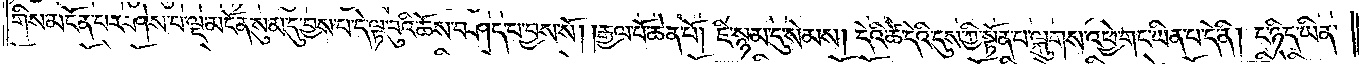གིས་མངོན་པར་ཤེས་པ་ལྔ་མངོན་སུམ་དུ་བྱས་པ་དེ་ལྟ་བུའི་ཆོས་བཤད་པ་བྱས་སོ། །རྒྱལ་པོ་ཆེན་པོ། ཇི་སྙམ་དུ་སེམས། དེའི་ཚེ་དེའི་དུས་ཀྱི་སྟོན་པ་ལྐུགས་འཕྱེ་གང་ཡིན་པ་དེ་ནི། ང་ཉིད་ཡིན་
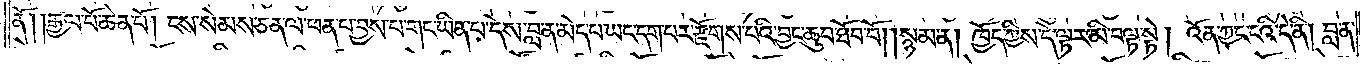ནོ། །རྒྱལ་པོ་ཆེན་པོ། ངས་སེམས་ཅན་ལ་ཕན་པ་བྱས་པ་གང་ཡིན་པ་དེས་བླ་ན་མེད་པ་ཡང་དག་པར་རྫོགས་པའི་བྱང་ཆུབ་ཐོབ་བོ། །སྙམ་ན། ཁྱོད་ཀྱིས་དེ་ལྟར་མི་བལྟ་སྟེ། འོན་ཀྱང་ངའི་དེ་ནི། བླ་ན་
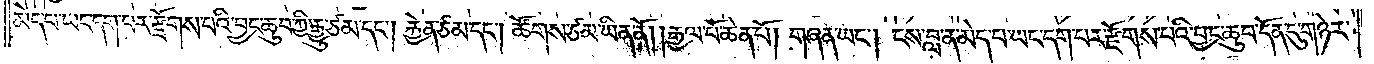མེད་པ་ཡང་དག་པར་རྫོགས་པའི་བྱང་ཆུབ་ཀྱི་རྒྱུ་ཙམ་དང༌། རྐྱེན་ཙམ་དང༌། ཚོགས་ཙམ་ཡིན་ནོ། །རྒྱལ་པོ་ཆེན་པོ། གཞན་ཡང༌། ངས་བླ་ན་མེད་པ་ཡང་དག་པར་རྫོགས་པའི་བྱང་ཆུབ་དོན་དུ་གཉེར་
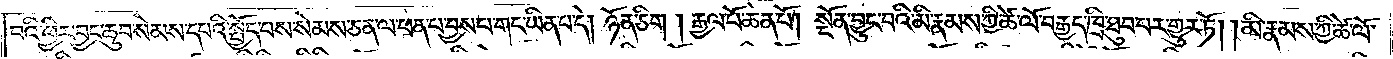པའི་ཕྱིར་བྱང་ཆུབ་སེམས་དཔའི་སྤྱོད་པས་སེམས་ཅན་ལ་ཕན་པ་བྱས་པ་གང་ཡིན་པ་དེ། ཉོན་ཅིག །རྒྱལ་པོ་ཆེན་པོ། སྔོན་བྱུང་བའི་མི་རྣམས་ཀྱི་ཚེ་ལོ་བརྒྱད་ཁྲི་ཐུབ་པར་གྱུར་ཏོ། །མི་རྣམས་ཀྱི་ཚེ་ལོ་
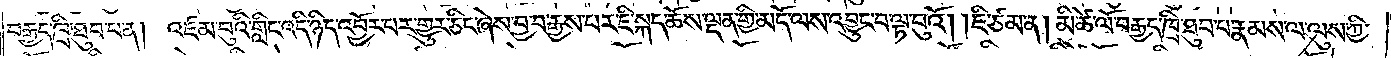བརྒྱད་ཁྲི་ཐུབ་པ་ན། འཛམ་བུའི་གླིང་འདི་ཉིད་འབྱོར་བར་གྱུར་ཅིང་ཞེས་བྱ་བ་རྒྱས་པར་ཇི་སྐད་ཆོས་ལྡན་གྱི་མདོ་ལས་འབྱུང་བ་ལྟ་བུའོ། །ཇི་ཙམ་ན། མི་ཚེ་ལོ་བརྒྱད་ཁྲི་ཐུབ་པ་རྣམས་ལ་ལུས་ཀྱི་
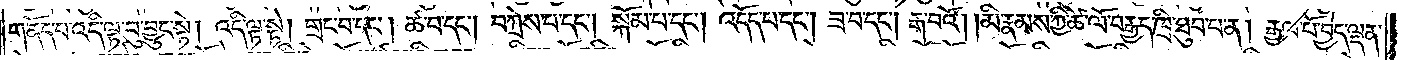གནོད་པ་འདི་ལྟ་བུ་བྱུང་སྟེ། འདི་ལྟ་སྟེ། གྲང་བ་དང༌། ཚ་བ་དང༌། བཀྲེས་པ་དང༌། སྐོམ་པ་དང༌། འདོད་པ་དང༌། ཟ་བ་དང༌། རྒ་བའོ། །མི་རྣམས་ཀྱི་ཚེ་ལོ་བརྒྱད་ཁྲི་ཐུབ་པ་ན། རྒྱལ་པོ་བྱེད་ལྡན་
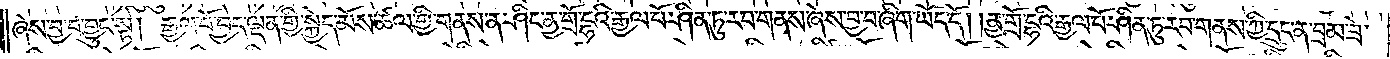ཞེས་བྱ་བ་བྱུང་སྟེ། རྒྱལ་པོ་བྱེད་ལྡན་གྱི་སྐྱེད་མོས་ཚལ་གྱི་གནས་ན་ཤིང་ནྱ་གྲོ་དྷའི་རྒྱལ་པོ་ཤིན་ཏུ་རབ་གནས་ཞེས་བྱ་བ་ཞིག་ཡོད་དོ། །ནྱ་གྲོ་དྷའི་རྒྱལ་པོ་ཤིན་ཏུ་རབ་གནས་ཀྱི་དྲུང་ན་བྲམ་ཟེ་
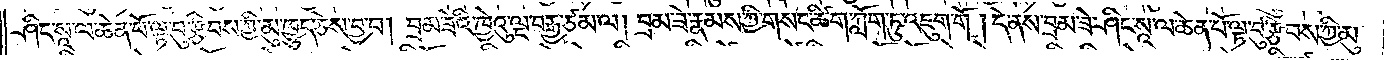ཤིང་སཱ་ལ་ཆེན་པོ་ལྟ་བུ་རྩིབས་ཀྱི་མུ་ཁྱུད་ཅེས་བྱ་བ། བྲམ་ཟེའི་ཁྱེའུ་ལྔ་བརྒྱ་ཙམ་ལ། བྲམ་ཟེ་རྣམས་ཀྱི་གསང་ཚིག་ཀློག་ཏུ་འཇུག་གོ། དེ་ནས་བྲམ་ཟེ་ཤིང་སཱ་ལ་ཆེན་པོ་ལྟ་བུ་རྩིབས་ཀྱི་མུ་
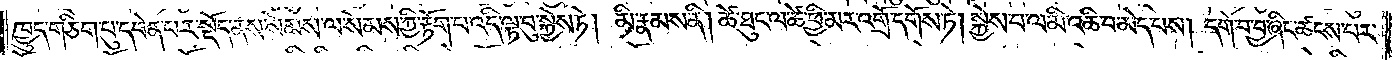ཁྱུད་གཅིག་པུ་དབེན་པར་སྡོད་ནས་སེམས་ལ་སེམས་ཀྱི་རྟོག་པ་འདི་ལྟ་བུ་སྐྱེས་ཏེ། མི་རྣམས་ནི། ཚེ་ཐུང་ལ་ཚེ་ཕྱི་མར་འགྲོ་དགོས་ཏེ། སྐྱེས་པ་ལ་མི་འཆི་བ་མེད་པས། དགེ་བ་བྱ་ཞིང་ཚངས་པར་
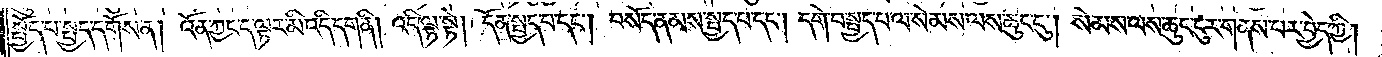སྤྱོད་པ་སྤྱད་དགོས་ན། འོན་ཀྱང་ད་ལྟར་མི་འདི་དག་ནི། འདི་ལྟ་སྟེ། དོན་སྤྱད་པ་དང༌། བསོད་ནམས་སྤྱད་པ་དང༌། དགེ་བ་སྤྱད་པ་ལ་སེམས་ལས་ཆུང་དུ། སེམས་ལས་ཆུང་ངུར་གནས་པར་བྱེད་ཀྱི།
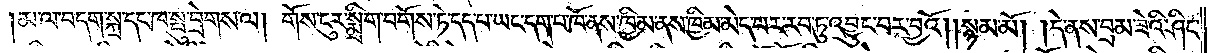མ་ལ་བདག་སྐྲ་དང་ཁ་སྤུ་བྲེགས་ལ། གོས་ངུར་སྨྲིག་བགོས་ཏེ་དད་པ་ཡང་དག་པ་ཁོ་ནས་ཁྱིམ་ནས་ཁྱིམ་མེད་པར་རབ་ཏུ་འབྱུང་བར་བྱའོ། །སྙམ་མོ། །དེ་ནས་བྲམ་ཟེའི་ཤིང་
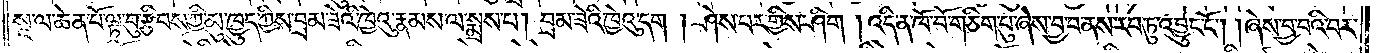སཱ་ལ་ཆེན་པོ་ལྟ་བུ་རྩིབས་ཀྱི་མུ་ཁྱུད་ཀྱིས་བྲམ་ཟེའི་ཁྱེའུ་རྣམས་ལ་སྨྲས་པ། བྲམ་ཟེའི་ཁྱེའུ་དག །ཤེས་པར་གྱིས་ཤིག །འདི་ན་ཁོ་བོ་གཅིག་པུ་ཞེས་བྱ་བ་ནས་རབ་ཏུ་འབྱུང་ངོ༌། །ཞེས་བྱ་བའི་བར་
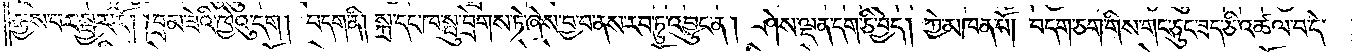རྒྱས་པར་སྦྱར་རོ། །བྲམ་ཟེའི་ཁྱེའུ་དག །བདག་ནི། སྐྲ་དང་ཁ་སྤུ་བྲེགས་ཏེ་ཞེས་བྱ་བ་ནས་རབ་ཏུ་འབྱུང་ན། ཤེས་ལྡན་དག་ཅི་བྱེད། ཀྱེ་མཁན་པོ། བདག་ཅག་གིས་གང་ཅུང་ཟད་ཅི་འཚལ་བ་དེ་
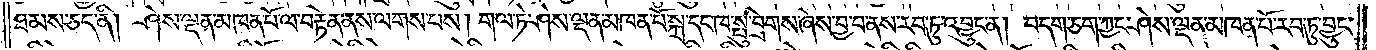ཐམས་ཅད་ནི། ཤེས་ལྡན་མཁན་པོ་ལ་བརྟེན་ནས་ལགས་པས། གལ་ཏེ་ཤེས་ལྡན་མཁན་པོ་སྐྲ་དང་ཁ་སྤུ་བྲེགས་ཞེས་བྱ་བ་ནས་རབ་ཏུ་འབྱུང་ན། བདག་ཅག་ཀྱང་ཤེས་ལྡན་མཁན་པོ་རབ་ཏུ་བྱུང་
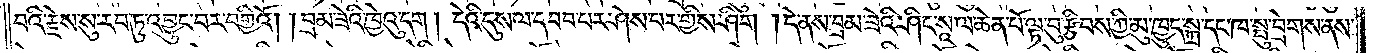བའི་རྗེས་སུ་རབ་ཏུ་འབྱུང་བར་བགྱིའོ། །བྲམ་ཟེའི་ཁྱེའུ་དག །དེའི་དུས་ལ་དབབ་པར་ཤེས་པར་གྱིས་ཤིག །དེ་ནས་བྲམ་ཟེའི་ཤིང་སཱ་ལ་ཆེན་པོ་ལྟ་བུ་རྩིབས་ཀྱི་མུ་ཁྱུད་སྐྲ་དང་ཁ་སྤུ་བྲེགས་ནས་
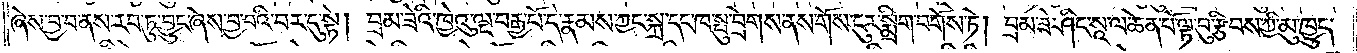ཞེས་བྱ་བ་ནས་རབ་ཏུ་བྱུང་ཞེས་བྱ་བའི་བར་དུ་སྟེ། བྲམ་ཟེའི་ཁྱེའུ་ལྔ་བརྒྱ་པོ་དེ་རྣམས་ཀྱང་སྐྲ་དང་ཁ་སྤུ་བྲེགས་ནས་གོས་ངུར་སྨྲིག་བགོས་ཏེ། བྲམ་ཟེ་ཤིང་སཱ་ལ་ཆེན་པོ་ལྟ་བུ་རྩིབས་ཀྱི་མུ་ཁྱུད་
